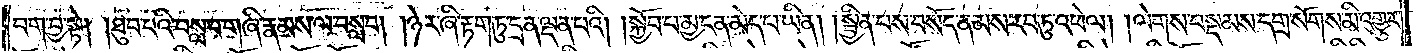བག་བྱ་སྟེ། །ཐུབ་པའི་བསླབ་གཞི་རྣམས་ལ་བསླབ། །ཉེར་ཞི་རྟག་ཏུ་དྲན་ལྡན་པའི། །སྐྱོབ་པ་མྱ་ངན་མེད་པ་ཡིན། །སྦྱིན་པས་བསོད་ནམས་རབ་ཏུ་འཕེལ། །ལེགས་བསྡམས་དགྲ་སོགས་མི་འགྱུར་
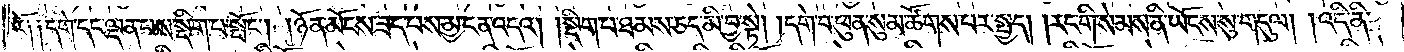རོ༑ ༑དགེ་དང་ལྡན་པས་སྡིག་པ་སྤོང༌། །ཉོན་མོངས་ཟད་པས་མྱ་ངན་འདའ། །སྡིག་པ་ཐམས་ཅད་མི་བྱ་སྟེ། །དགེ་བ་ཕུན་སུམ་ཚོགས་པར་སྤྱད། །རང་གི་སེམས་ནི་ཡོངས་སུ་གདུལ། །འདི་ནི་
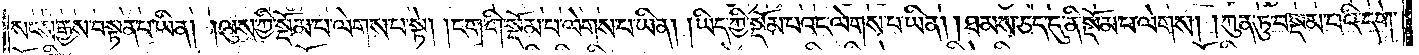སངས་རྒྱས་བསྟན་པ་ཡིན། །ལུས་ཀྱི་སྡོམ་པ་ལེགས་པ་སྟེ། །ངག་གི་སྡོམ་པ་ལེགས་པ་ཡིན། །ཡིད་ཀྱི་སྡོམ་པའང་ལེགས་པ་ཡིན། །ཐམས་ཅད་དུ་ནི་སྡོམ་པ་ལེགས། །ཀུན་ཏུ་བསྡམ་པའི་དགེ་
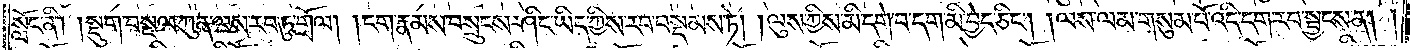སློང་ནི། །སྡུག་བསྔལ་ཀུན་ལས་རབ་ཏུ་གྲོལ། །ངག་རྣམས་བསྲུངས་ཤིང་ཡིད་ཀྱིས་རབ་བསྡམས་ཏེ། །ལུས་ཀྱིས་མི་དགེ་བ་དག་མི་བྱེད་ཅིང༌། །ལས་ལམ་གསུམ་པོ་འདི་དག་རབ་སྦྱངས་ན། །
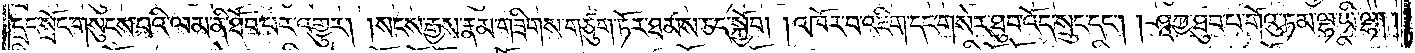དྲང་སྲོང་གསུངས་པའི་ལམ་ནི་ཐོབ་པར་འགྱུར། །སངས་རྒྱས་རྣམ་གཟིགས་གཙུག་ཏོར་ཐམས་ཅད་སྐྱོབ། །འཁོར་བ་འཇིག་དང་གསེར་ཐུབ་འོད་སྲུང་དང༌། ཤཱཀྱ་ཐུབ་པ་གོའུ་ཏ་མ་ལྷ་ཡི་ལྷ། །
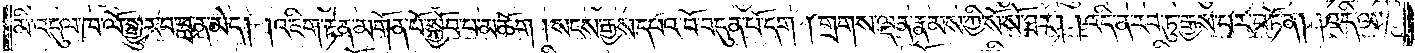མི་འདུལ་ཁ་ལོ་སྒྱུར་བ་བླ་ན་མེད། །འཇིག་རྟེན་མགོན་པོ་སྐྱོབ་པ་མཆོག །སངས་རྒྱས་དཔའ་བོ་བདུན་པོ་དག །གྲགས་ལྡན་རྣམས་ཀྱི་སོ་སོ་ཐར། །འདི་ན་རབ་ཏུ་རྒྱས་པར་བཏོན། །འདི་ལ་
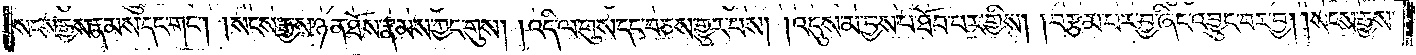སངས་རྒྱས་རྣམས་དང་གང༌། །སངས་རྒྱས་ཉན་ཐོས་རྣམས་ཀྱང་གུས། །འདི་ལ་གུས་དང་བཅས་གྱུར་པས། །འདུས་མ་བྱས་པ་ཐོབ་པར་གྱིས། །བརྩམ་པར་བྱ་ཞིང་འབྱུང་བར་བྱ། །སངས་རྒྱས་
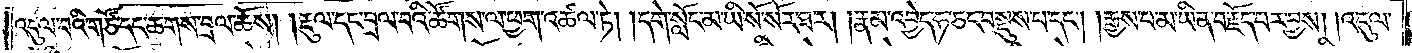འདུལ་བའི་གཙོ་དང་ཆགས་བྲལ་ཆོས། །རྡུལ་དང་བྲལ་བའི་ཚོགས་ལ་ཕྱག་འཚལ་ཏེ།    །དགེ་སློང་མ་ཡི་སོ་སོར་ཐར། །རྣམ་འབྱེད་ཧ་ཅང་བསྡུས་པ་དང༌། །རྒྱས་པ་མ་ཡིན་བརྗོད་པར་བྱས། །འདུལ་
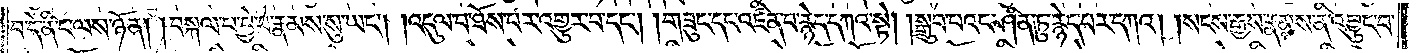བ་དེ་ནི་ང་ལས་ཉོན། །བསྐལ་པ་བྱེ་བ་རྣམས་སུ་ཡང༌། །འདུལ་བ་ཐོས་པར་འགྱུར་བ་དང༌། །གཟུང་དང་འཛིན་པ་རྙེད་དཀའ་སྟེ། །སྒྲུབ་པའང་ཤིན་ཏུ་རྙེད་པར་དཀའ། །སངས་རྒྱས་རྣམས་ནི་འབྱུང་བ་
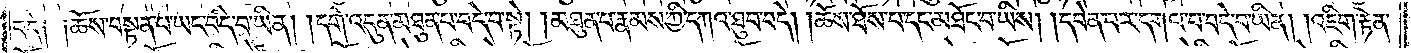བདེ༑ ༑ཆོས་བསྟན་པ་ཡང་བདེ་བ་ཡིན། །དགེ་འདུན་མཐུན་པ་བདེ་བ་སྟེ། །མཐུན་པ་རྣམས་ཀྱི་དཀའ་ཐུབ་བདེ། །ཆོས་ཐོས་པ་དང་མཐོང་བ་ཡིས། །དབེན་པར་དགའ་བ་བདེ་བ་ཡིན། །འཇིག་རྟེན་
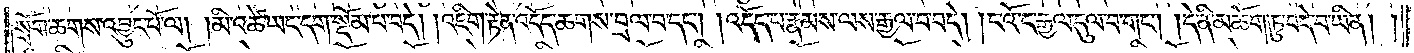སྲོག་ཆགས་འབྱུང་པོ་ལ། །མི་འཚེ་ཡང་དག་སྡོམ་པ་བདེ། །འཇིག་རྟེན་འདོད་ཆགས་བྲལ་བ་དང༌། །འདོད་པ་རྣམས་ལས་རྒྱལ་བ་བདེ། །ང་འོ་ང་རྒྱལ་དུལ་བ་གང༌། །དེ་ནི་མཆོག་ཏུ་བདེ་བ་ཡིན། །
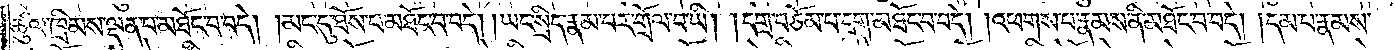ཚུལ་ཁྲིམས་ལྡན་པ་མཐོང་བ་བདེ། །མང་དུ་ཐོས་པ་མཐོང་བ་བདེ། །ཡང་སྲིད་རྣམ་པར་གྲོལ་བ་ཡི། །དགྲ་བཅོམ་པ་དག་མཐོང་བ་བདེ། །འཕགས་པ་རྣམས་ནི་མཐོང་བ་བདེ། །དམ་པ་རྣམས་
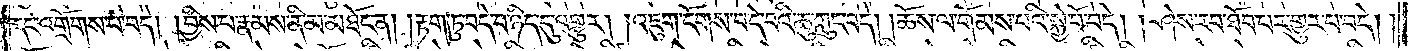དང་འགྲོགས་པ་བདེ། །བྱིས་པ་རྣམས་ནི་མ་མཐོང་ན། །རྟག་ཏུ་བདེ་བ་ཉིད་དུ་འགྱུར། །འཇུག་ངོགས་བདེ་བའི་ཆུ་ཀླུང་བདེ། །ཆོས་ལ་གོམས་པའི་སྐྱེ་བོ་བདེ། །ཤེས་རབ་ཐོབ་པར་གྱུར་པ་བདེ། །
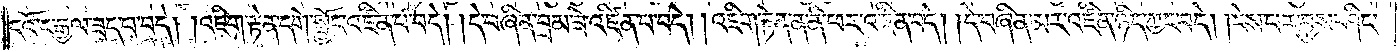ངའོ་ང་རྒྱལ་ཟད་པ་བདེ། །འཇིག་རྟེན་དགེ་སྦྱོང་འཛིན་པ་བདེ། །དེ་བཞིན་བྲམ་ཟེ་འཛིན་པ་བདེ། །འཇིག་རྟེན་ན་ནི་ཕར་འཛིན་བདེ། །དེ་བཞིན་མར་འཛིན་ཉིད་ཀྱང་བདེ། །ངེས་པར་བྱས་ཤིང་
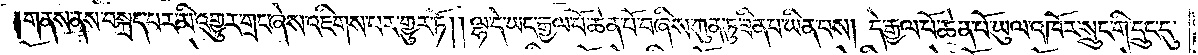གནས་ནས་བསྐྲད་པར་མི་འགྱུར་གྲང་ཞེས་འཇིགས་པར་གྱུར་ཏོ། །ལྷ་དེ་ཡང་རྒྱལ་པོ་ཆེན་པོ་བཞིས་ཀུན་ཏུ་ཟིན་པ་ཡིན་བས། དེ་རྒྱལ་པོ་ཆེན་པོ་ཡུལ་འཁོར་སྲུང་གི་དྲུང་དུ་
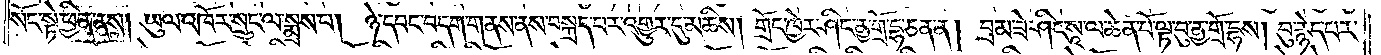སོང་སྟེ་ཕྱིན་ནས། ཡུལ་འཁོར་སྲུང་ལ་སྨྲས་པ། ཉེ་དབང་བདག་གནས་ནས་བསྐྲད་པར་འགྱུར་དུ་མཆིས། གྲོང་ཁྱེར་ཤིང་ནྱ་གྲོ་དྷ་ཅན་ན། བྲམ་ཟེ་ཤིང་སཱ་ལ་ཆེན་པོ་ལྟ་བུ་ནྱ་གྲོ་དྷས། བུ་རྙེད་པར་
